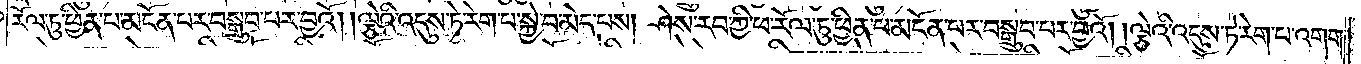རོལ་ཏུ་ཕྱིན་པ་མངོན་པར་བསྒྲུབ་པར་བྱའོ། །ལྕེའི་འདུས་ཏེ་རེག་པ་སྐྱེ་བ་མེད་པས། ཤེས་རབ་ཀྱི་ཕ་རོལ་ཏུ་ཕྱིན་པ་མངོན་པར་བསྒྲུབ་པར་བྱའོ། །ལྕེའི་འདུས་ཏེ་རེག་པ་འགག་
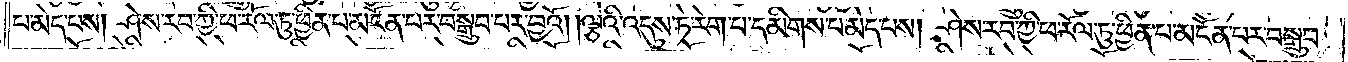པ་མེད་པས། ཤེས་རབ་ཀྱི་ཕ་རོལ་ཏུ་ཕྱིན་པ་མངོན་པར་བསྒྲུབ་པར་བྱའོ། །ལྕེའི་འདུས་ཏེ་རེག་པ་དམིགས་པ་མེད་པས། ཤེས་རབ་ཀྱི་ཕ་རོལ་ཏུ་ཕྱིན་པ་མངོན་པར་བསྒྲུབ་
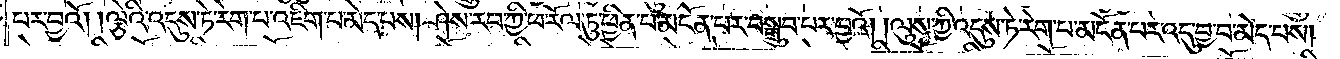པར་བྱའོ། །ལྕེའི་འདུས་ཏེ་རེག་པ་འཇིག་པ་མེད་པས། ཤེས་རབ་ཀྱི་ཕ་རོལ་ཏུ་ཕྱིན་པ་མངོན་པར་བསྒྲུབ་པར་བྱའོ། །ལུས་ཀྱི་འདུས་ཏེ་རེག་པ་མངོན་པར་འདུ་བྱ་བ་མེད་པས།
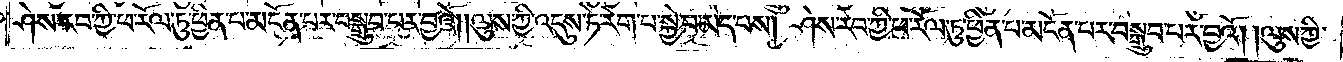ཤེས་རབ་ཀྱི་ཕ་རོལ་ཏུ་ཕྱིན་པ་མངོན་པར་བསྒྲུབ་པར་བྱའོ། །ལུས་ཀྱི་འདུས་ཏེ་རེག་པ་སྐྱེ་བ་མེད་པས། ཤེས་རབ་ཀྱི་ཕ་རོལ་ཏུ་ཕྱིན་པ་མངོན་པར་བསྒྲུབ་པར་བྱའོ། །ལུས་ཀྱི་
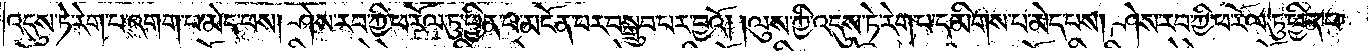འདུས་ཏེ་རེག་པ་འགག་པ་མེད་པས། ཤེས་རབ་ཀྱི་ཕ་རོལ་ཏུ་ཕྱིན་པ་མངོན་པར་བསྒྲུབ་པར་བྱའོ། །ལུས་ཀྱི་འདུས་ཏེ་རེག་པ་དམིགས་པ་མེད་པས། ཤེས་རབ་ཀྱི་ཕ་རོལ་ཏུ་ཕྱིན་པ་
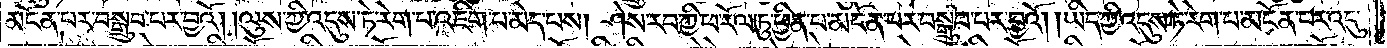མངོན་པར་བསྒྲུབ་པར་བྱའོ། །ལུས་ཀྱི་འདུས་ཏེ་རེག་པ་འཇིག་པ་མེད་པས། ཤེས་རབ་ཀྱི་ཕ་རོལ་ཏུ་ཕྱིན་པ་མངོན་པར་བསྒྲུབ་པར་བྱའོ། །ཡིད་ཀྱི་འདུས་ཏེ་རེག་པ་མངོན་པར་འདུ་
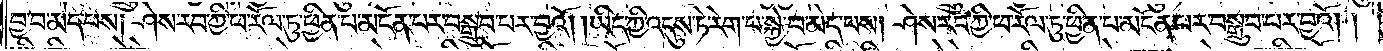བྱ་བ་མེད་པས། ཤེས་རབ་ཀྱི་ཕ་རོལ་ཏུ་ཕྱིན་པ་མངོན་པར་བསྒྲུབ་པར་བྱའོ། །ཡིད་ཀྱི་འདུས་ཏེ་རེག་པ་སྐྱེ་བ་མེད་པས། ཤེས་རབ་ཀྱི་ཕ་རོལ་ཏུ་ཕྱིན་པ་མངོན་པར་བསྒྲུབ་པར་བྱའོ། །
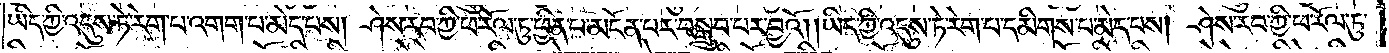ཡིད་ཀྱི་འདུས་ཏེ་རེག་པ་འགག་པ་མེད་པས། ཤེས་རབ་ཀྱི་ཕ་རོལ་ཏུ་ཕྱིན་པ་མངོན་པར་བསྒྲུབ་པར་བྱའོ། །ཡིད་ཀྱི་འདུས་ཏེ་རེག་པ་དམིགས་པ་མེད་པས། ཤེས་རབ་ཀྱི་ཕ་རོལ་ཏུ་
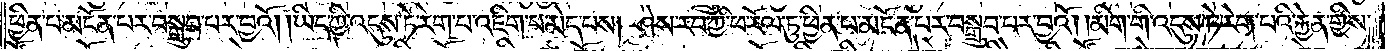ཕྱིན་པ་མངོན་པར་བསྒྲུབ་པར་བྱའོ། །ཡིད་ཀྱི་འདུས་ཏེ་རེག་པ་འཇིག་པ་མེད་པས། ཤེས་རབ་ཀྱི་ཕ་རོལ་ཏུ་ཕྱིན་པ་མངོན་པར་བསྒྲུབ་པར་བྱའོ། །མིག་གི་འདུས་ཏེ་རེག་པའི་རྐྱེན་གྱིས་
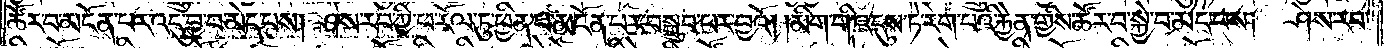ཚོར་བ་མངོན་པར་འདུ་བྱ་བ་མེད་པས། ཤེས་རབ་ཀྱི་ཕ་རོལ་ཏུ་ཕྱིན་པ་མངོན་པར་བསྒྲུབ་པར་བྱའོ། །མིག་གི་འདུས་ཏེ་རེག་པའི་རྐྱེན་གྱིས་ཚོར་བ་སྐྱེ་བ་མེད་པས། ཤེས་རབ་
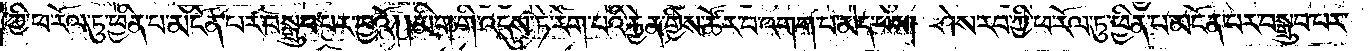ཀྱི་ཕ་རོལ་ཏུ་ཕྱིན་པ་མངོན་པར་བསྒྲུབ་པར་བྱའོ། །མིག་གི་འདུས་ཏེ་རེག་བའི་རྐྱེན་གྱིས་ཚོར་བ་འགག་པ་མེད་པས། ཤེས་རབ་ཀྱི་ཕ་རོལ་ཏུ་ཕྱིན་པ་མངོན་པར་བསྒྲུབ་པར་
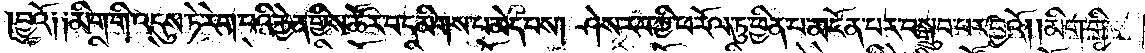བྱའོ༑ ༑མིག་གི་འདུས་ཏེ་རེག་པའི་རྐྱེན་གྱིས་ཚོར་བ་དམིགས་པ་མེད་པས། ཤེས་རབ་ཀྱི་ཕ་རོལ་ཏུ་ཕྱིན་པ་མངོན་པར་བསྒྲུབ་པར་བྱའོ། །མིག་གི་
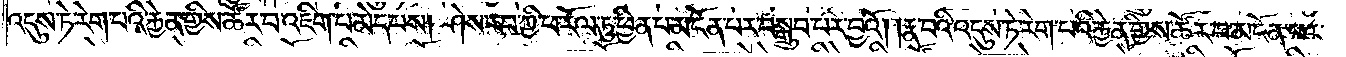འདུས་ཏེ་རེག་པའི་རྐྱེན་གྱིས་ཚོར་བ་འཇིག་པ་མེད་པས། ཤེས་རབ་ཀྱི་ཕ་རོལ་ཏུ་ཕྱིན་པ་མངོན་པར་བསྒྲུབ་པར་བྱའོ། །རྣ་བའི་འདུས་ཏེ་རེག་པའི་རྐྱེན་གྱིས་ཚོར་བ་མངོན་པར་
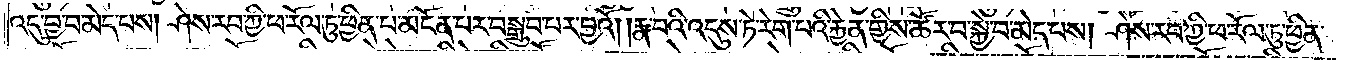འདུ་བྱ་བ་མེད་པས། ཤེས་རབ་ཀྱི་ཕ་རོལ་ཏུ་ཕྱིན་པ་མངོན་པར་བསྒྲུབ་པར་བྱའོ། །རྣ་བའི་འདུས་ཏེ་རེག་པའི་རྐྱེན་གྱིས་ཚོར་བ་མེད་པས། ཤེས་རབ་ཀྱི་ཕ་རོལ་ཏུ་ཕྱིན་
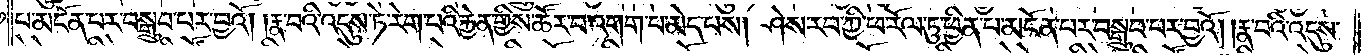པ་མངོན་པར་བསྒྲུབ་པར་བྱའོ། །རྣ་བའི་འདུས་ཏེ་རེག་པའི་རྐྱེན་གྱིས་ཚོར་བ་འགག་པ་མེད་པས། ཤེས་རབ་ཀྱི་ཕ་རོལ་ཏུ་ཕྱིན་པ་མངོན་པར་བསྒྲུབ་པར་བྱའོ། །རྣ་བའི་འདུས་
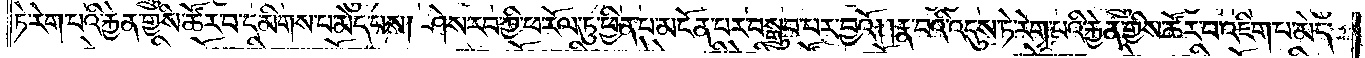ཏེ་རེག་པའི་རྐྱེན་གྱིས་ཚོར་བ་དམིགས་པ་མེད་པས། ཤེས་རབ་ཀྱི་ཕ་རོལ་ཏུ་བྱིན་པ་མངོན་པར་བསྒྲུབ་པར་བྱའོ། །རྣ་བའི་འདུས་ཏེ་རེག་པའི་རྐྱེན་གྱིས་ཚོར་བ་འཇིག་པ་མེད་
